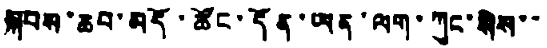སྐབས་ཆབ་མདོ་ཚོང་དོན་ཡན་ལག་ཀུང་སིས་་
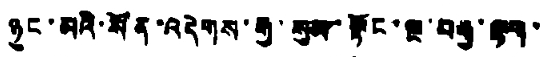ཉུང་མའི་སོན་འདེགས་རྒྱ་སུམ་སྟོང་ལྔ་བརྒྱ་ལྷག་
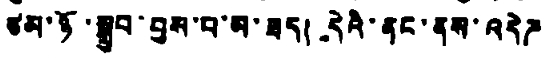ཙམ་ཉོ་སྒྲུབ་བྱས་པ་མ་ཟད། དེའི་ནང་ནས་འདེཌ
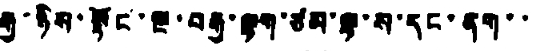རྒྱ་ཉིས་སྟོང་ལྔ་བརྒྱ་ལྷག་ཙམ་ལྟ་ས་དང་ནག་་
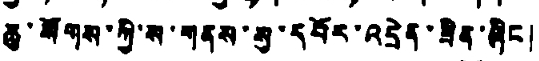ཆུ་སོགས་ཀྱི་ས་གནས་སུ་དབོར་འདྲེན་ཟིན་ཞི །
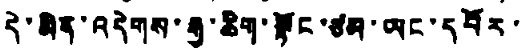དེ་མིན་འདེགས་རྒྱ་ཆིག་སྟོང་ཙམ་ཡང་དབོར་་
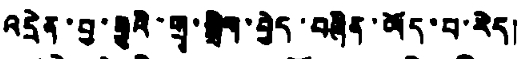འདྲེན་བྱ་རྒྱུའི་གྲྭ་སྒྲིག་བྱེད་བཞིན་ཡོད་པ་རེད།
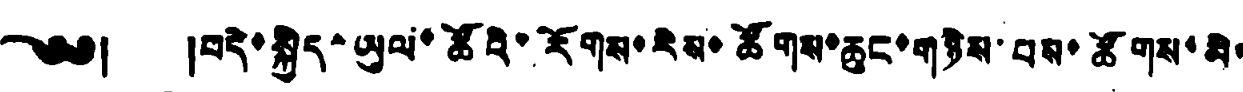༄༅། །བདེ་སྐྱིད་ཡུལ་ཚོའི་རོགས་རེས་ཚོགས་ཆུང་གཉིས་པས་ཚོགས་མི་
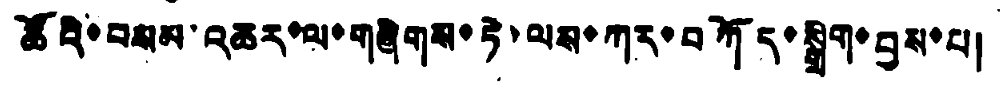ཚོའི་བསམ་འཆར་ལ་གཞིགས་ཏེ་ལས་ཀར་བཀོད་སྒྲིག་བྱས་པ།
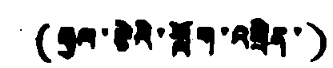(རྒྱལ་རྩེའི་གློག་འཕྲིན་)
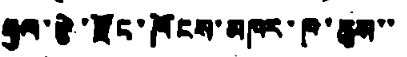རྒྱལ་རྩེ་རྫོང་ཁོངས་མཁར་ཁ་ཆུས་་
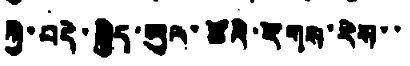ཀྱི་བདེ་སྐྱིད་ཡུལ་ཚོའི་རོགས་རེས་་
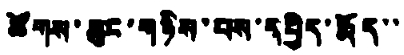ཚོགས་ཆུང་གཉིས་པས་དཔྱིད་རྨོད་་
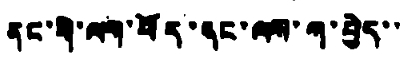ནང་གི་ལག་བོད་ནང་ལས་ཀ་བྱེད་་
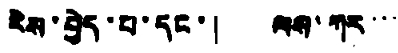རེས་བྱེད་པ་དང་། ལས་ཀར་་་
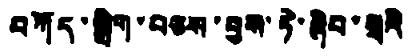བཀོད་སྒྲིག་བཅས་བྱས་ཏེ་ཞིབ་ཕྲའི་
